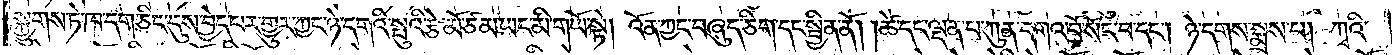སྐྱུགས་ཏེ་ཁ་དག་ཅིང་དུས་བྱེད་པར་གྱུར་ཀྱང་ཉེ་དགའི་སྤུའི་རྩེ་མོ་ཙམ་ཡང་མི་གཡོ་སྟེ། འོན་ཀྱང་བཞུད་ཅིག་དང་སྦྱིན་ནོ། །ཚེ་དང་ལྡན་པ་ཀུན་དགའ་བོ་སོང་བ་དང༌། ཉེ་དགས་སྨྲས་པ། ཀྭའི་
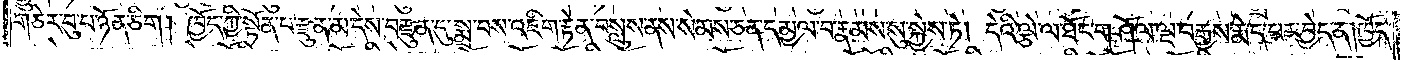གཅེར་བུ་པ་ཉོན་ཅིག །ཁྱོད་ཀྱི་སྟོན་པ་རྫུན་མ་དེས་བརྫུན་དུ་སྨྲ་བས་འཇིག་རྟེན་བསླུས་ནས་སེམས་ཅན་དམྱལ་བ་རྣམས་སུ་སྐྱེས་ཏེ། དེའི་ལྕེ་ལ་ཐོང་གཤོལ་ལྔ་བརྒྱས་རྨེད་པར་བྱེད་ན། ཁྱོད་
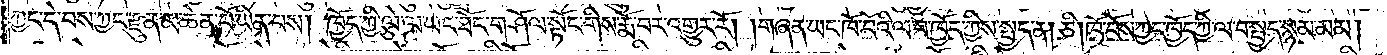ཀྱང་དེ་བས་ཀྱང་རྫུན་མ་ཆེན་པོ་ཡིན་པས། ཁྱོད་ཀྱི་ལྕེ་ལ་ཡང་ཐོང་གཤོལ་སྟོང་གིས་རྨོ་བར་འགྱུར་རོ། །གཞན་ཡང་ཁོ་བོའི་ལ་བ་ཁྱོད་ཀྱིས་སྤྱད་ན། ཅི། ཁོ་བོས་ཀྱང་ཁྱོད་ཀྱི་ལ་བ་སྤྱད་སྙམ་མམ།
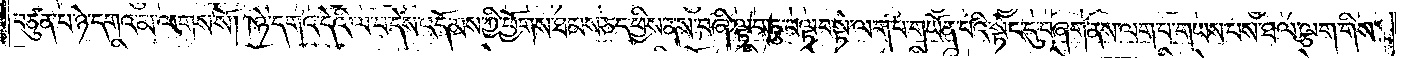བཙུན་པ་ཉེ་དགའ་མ་ལགས་སོ། །ཉེ་དགའ་དེའི་ལ་བ་དེས་འདོམས་ཀྱི་ཕྱོགས་ཐམས་ཅད་ཕྱིས་ནས་བཞི་ལྟབ་ཏུ་བལྟབ་སྟེ་ལག་པ་གཡོན་པའི་སྟེང་དུ་བཞག་ནས་ལག་པ་གཡས་པས་ཐལ་ལྕག་གིས་
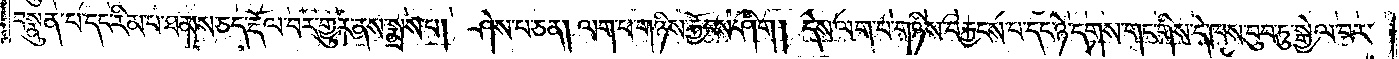བསྣུན་པ་དང་རིམ་པ་ཐམས་ཅད་རྡོལ་བར་གྱུར་ནས་སྨྲས་པ། ཤེས་པ་ཅན། ལག་པ་གཉིས་རྐྱོངས་ཤིག། དེས་ལག་པ་གཉིས་བརྐྱངས་པ་དང་ཉེ་དགས་གང་གིས་དེ་ཁས་བུབ་ཏུ་སྒྱེལ་བར་
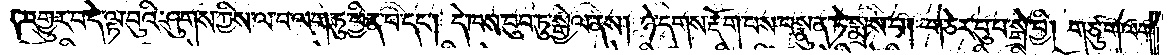འགྱུར་བ་དེ་ལྟ་བུའི་ཤུགས་ཀྱིས་ལ་བ་ལག་ཏུ་ཕྱིན་པ་དང༌། དེ་ཁས་བུབ་ཏུ་སྒྱེལ་ནས། ཉེ་དགས་རྡོག་པས་བསྣུན་ཏེ་སྨྲས་པ། གཅེར་བུ་པ་སྒྲེ་བྱི། གཙུག་ལག་
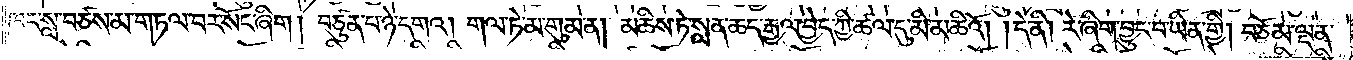ཁང་སླ་བཙས་མ་གཏལ་བར་སོང་ཞིག ། བཙུན་པ་ཉེ་དགའ། གལ་ཏེ་མ་གུམ་ན། མཆིས་ཏེ་སླན་ཆད་རྒྱལ་བྱེད་ཀྱི་ཚལ་དུ་མི་མཆིའོ། །དེ་ནི། རེ་ཞིག་བྱུང་བ་ཡིན་གྱི། བཅོམ་ལྡན་
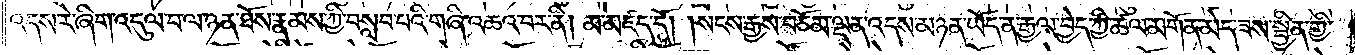འདས་རེ་ཞིག་འདུལ་བ་ལ་ཉན་ཐོས་རྣམས་ཀྱི་བསླབ་པའི་གཞི་འཆའ་བར་ནི། མ་མཛད་དོ། །སངས་རྒྱས་བཅོམ་ལྡན་འདས་མཉན་ཡོད་ན་རྒྱལ་བྱེད་ཀྱི་ཚལ་མགོན་མེད་ཟས་སྦྱིན་གྱི་
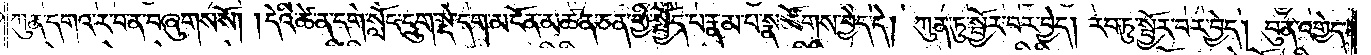ཀུན་དགའ་ར་བ་ན་བཞུགས་སོ། །དེའི་ཚེ་ན་དགེ་སློང་དྲུག་སྡེ་དག་མངོན་མཚན་ཅན་གྱི་སྤྱོད་པ་རྣམ་པ་སྣ་ཚོགས་བྱེད་དེ། ཀུན་ཏུ་སྦྱོར་བར་བྱེད། རབ་ཏུ་སྦྱོར་བར་བྱེད། བུན་འགྱེད་
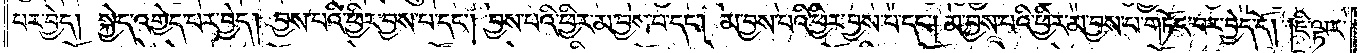པར་བྱེད། སྐྱེད་འགྱེད་པར་བྱེད། བྱས་པའི་ཕྱིར་བྱས་པ་དང༌། བྱས་པའི་ཕྱིར་མ་བྱས་པ་དང༌། མ་བྱས་པའི་ཕྱིར་བྱས་པ་དང༌། མ་བྱས་པའི་ཕྱིར་མ་བྱས་པ་གཏོང་བར་བྱེད་དོ། །ཇི་ལྟར་
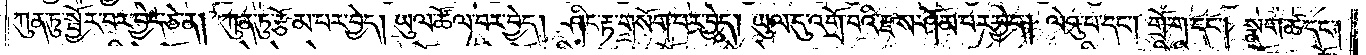ཀུན་ཏུ་སྦྱོར་བར་བྱེད་ཅེ་ན། ཀུན་ཏུ་རྩོམ་པར་བྱེད། ཡུལ་ཚོལ་བར་བྱེད། ཤིང་རྟ་གསོག་པར་བྱེད། ཡུལ་དུ་འགྲོ་བའི་རྫས་ཤོམ་པར་བྱེད། ལེའུ་པ་དང༌། གྲོ་ག་དང༌། སྣག་ཚ་དང༌།
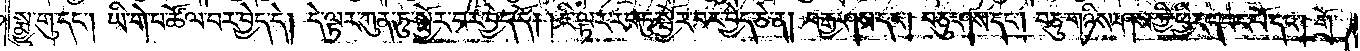སྨྱུ་གུ་དང༌། ཡི་གེ་པ་ཚོལ་བར་བྱེད་དེ། དེ་ལྟར་ཀུན་ཏུ་སྦྱོར་བར་བྱེད་དོ། །ཇི་ལྟར་རབ་ཏུ་སྦྱོར་བར་བྱེད་ཅེ་ན། བརྒྱ་ཤས་དང༌། བཅུ་ཤས་དང༌། བཅུ་གཉིས་ཤས་ཀྱི་ཕྱིར་དཔང་པོ་དང༌། གྲོ་
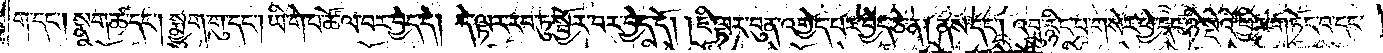ག་དང༌། སྣག་ཆ་དང༌། སྨྱུག་གུ་དང༌། ཡི་གེ་པ་ཚོལ་བར་བྱེད་དེ། དེ་ལྟར་རབ་ཏུ་སྦྱོར་བར་བྱེད་དོ། །ཇི་ལྟར་བུན་འགྱེད་པར་བྱེད་ཅེ་ན། ནས་དང༌། འབྲུ་རྙིང་པ་གསེར་ཕྱེ་དང་ཉི་སྡེའི་ཕྱིར་གཏོང་བ་དང་
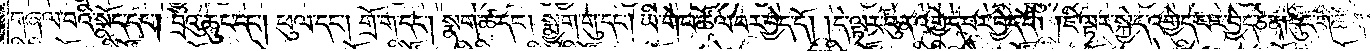གཞལ་བའི་སྣོད་དང༌། བྲེའུ་ཆུང་དང༌། ཕུལ་དང༌། གྲོ་ག་དང༌། སྣག་ཚ་དང༌། སྨྱུག་གུ་དང༌། ཡི་གེ་པ་ཚོལ་བར་བྱེད་དོ། །དེ་ལྟར་བུན་འགྱེད་པར་བྱེད་དོ། །ཇི་ལྟར་སྐྱེད་འགྱེད་པར་བྱེད་ཅེ་ན། དུང་གི་ཚོགས་
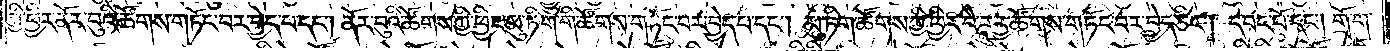ཀྱི་ཕྱིར་ནོར་བུའི་ཚོགས་གཏོང་བར་བྱེད་པ་དང༌། ནོར་བུའི་ཚོགས་ཀྱི་ཕྱིར་མུ་ཏིག་གི་ཚོགས་གཏོང་བར་བྱེད་པ་དང༌། མུ་ཏིག་ཚོགས་ཀྱི་ཕྱིར་བཻ་ཌཱུཪྻ་གཏོང་བར་བྱེད་ཅིང༌། དབང་པོ་དང༌། གྲོ་ག་
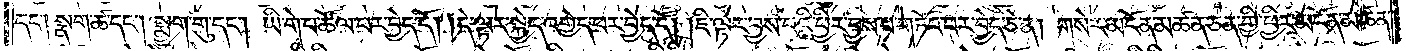དང༌། སྣག་ཚ་དང༌། སྨྱུག་གུ་དང༌། ཡི་གེ་པ་ཚོལ་བར་བྱེད་དོ། །དེ་ལྟར་སྐྱེད་འགྱེད་པར་བྱེད་དོ། །ཇི་ལྟར་བྱས་པའི་ཕྱིར་བྱས་པ་གཏོང་བར་བྱེད་ཅེ་ན། གསེར་མངོན་མཚན་ཅན་གྱི་ཕྱིར་མངོན་མཚན་
